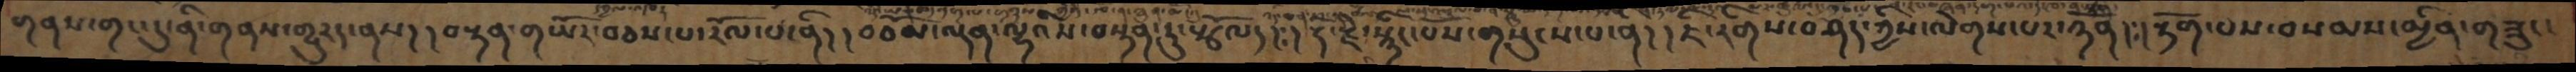གནས་གང་དུ་ནི་གནས་གྱུརད་ནས། །བརྟན་གཡོར་བཅས་པ་རོལ་པ་ནི། །བཅོམ་ལྡན་ལྷའིས་བསྟན་ཏུ་སྩོལ། །རྡོ་རྗེ་སྙིང་པོས་གསུངས་པ་ནི། །ཇི་རིགས་བཤད་ཀྱིས་ལེགས་པར་ཉོན། །རྟོག་པས་བསམས་མྱིན་གཟུང་
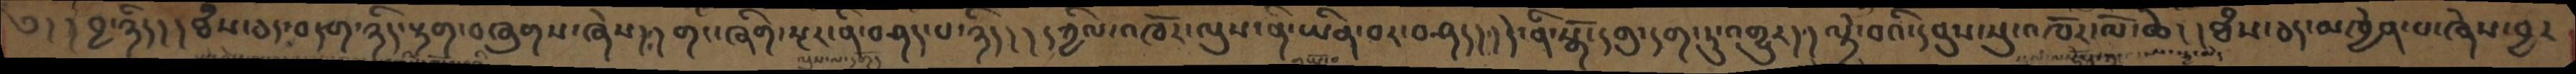༄། །བྱ་ཉིད། །ཐཾས་ཅད་བདག་ཉིད་རྟག་བཞུགས་ཞེས། །གང་ཞིག་སྔར་ནི་བཤད་པ་ཉིད། །དཀྱིལ་འཁོར་ལུས་ནི་ཡིན་བར་བཤད། །དེ་ནི་སྒོ་དགུ་དག་ཏུ་འགྱུར། །ལྟེ་བའི་དབུས་སུ་འཁོར་ལོ་ཆེ། །ཐཾས་ཅད་མཁྱེན་པ་ཞེས་བྱ་
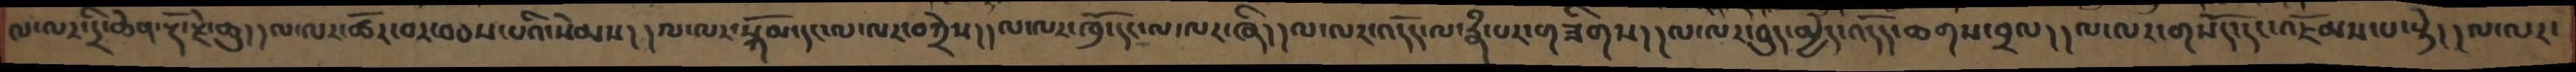ལ་ལར་དྲི་ཆེན་རྡོ་རྗེ་ཆུ། །ལ་ལར་ཚོར་བར་བཅས་པའི་སེམས། །ལ་ལར་སྐོམ་དང་ལ་ལར་བཀྲེས། །ལ་ལར་ཁྲོ་དང་ལ་ལར་ཞི། །ལ་ལར་འདོད་ལ་རྣཾ་པར་གཟིགས། །ལ་ལར་བུད་མྱེད་འདོད་ཆགས་བྲལ། །ལ་ལར་གསོད་དང་འཇོམས་པ་སྟེ། །ལ་ལར་
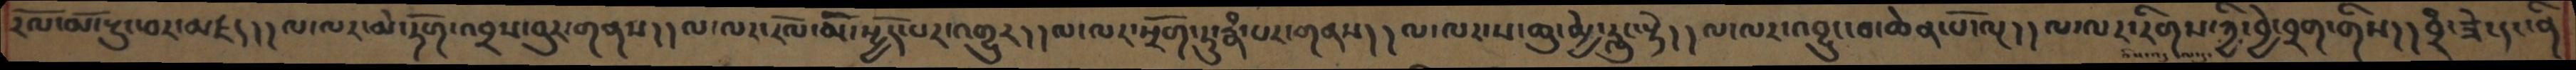རོལ་མོ་སྲུང་བར་མཛད། །ལ་ལར་མེ་ཏོག་འབྲས་བུར་གནས། །ལ་ལར་རོལ་མོ་སྤྱོད་པར་འགྱུར། །ལ་ལར་སྲོག་ཏུ་རྣཾ་པར་གནས། །ལ་ལར་ས་ཆུ་མྱེ་རླུང་སྟེ། །ལ་ལར་འབྱུང་བ་ཆེན་པོ་ལྔ། །ལ་ལར་རིགས་ཀྱི་བྱེ་བྲག་གིས། །བྲཾ་ཟེ་དང་ནི
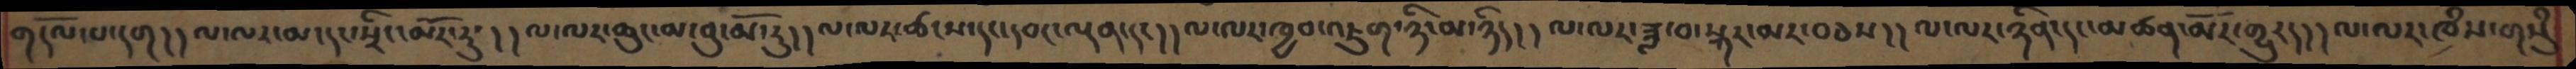གདོལ་པ་དག།།ལ་ལར་མ་དང་སྲིང་མོར་རུ་།།ལ་ལར་ཆུང་མ་བུ་མོ་རུ།།ལ་ལར་ཚངས་དང་དབང་ལྡན་དང།།ལ་ལར་ཁྱབ་འཇུག་ཉི་མ་ཉིད།།ལ་ལར་ཟླ་བ་སྐར་མར་བཅས།།ལ་ལར་ཉིན་དང་མཚན་མོར་གྱུརད།།ལ་ལར་ཁཾས་གསུཾ
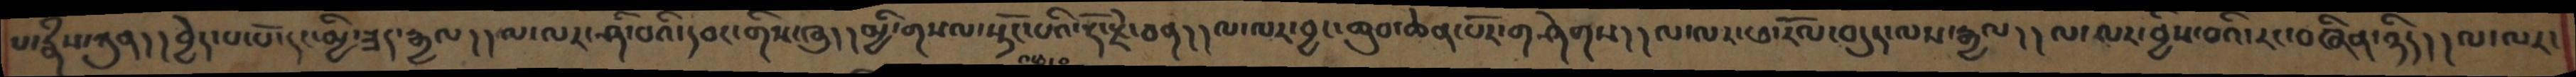པ་རྣཾས་ཀུན། །བྱེད་པ་པོ་དང་མྱི་ཟད་རྒྱལ། །ལ་ལར་ཤི་བའི་དབང་གིས་ཞུ། །མྱི་གསལ་སྟོང་པའི་རྡོ་རྗེ་ཅན། །ལ་ལར་བྱང་ཆུབ་ཆེན་པོར་གཤེགས། །ལ་ལར་ཕ་རོལ་བདུད་ལས་རྒྱལ། །ལ་ལར་བྱེས་བའི་རང་བཞིན་ཉིད། །ལ་ལར་
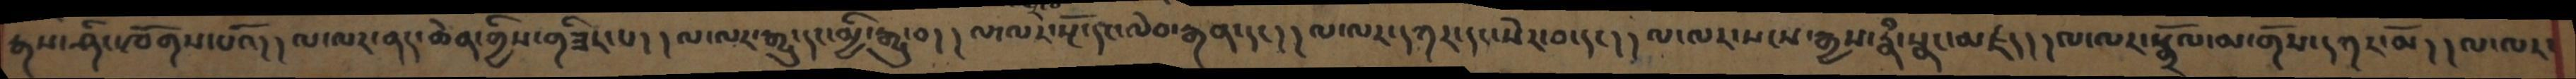རྒས་ཤིང་ཁོགས་པའོ། །ལ་ལར་ནད་ཆེན་གྱིས་གཟིར་པ། །ལ་ལར་རྒྱུ་དང་མྱི་རྒྱུ་བ། །ལ་ལར་སྔོ་དང་ལེབ་རྒན་དང། །ལ་ལར་དཀར་དང་སེར་བ་དང། །ལ་ལར་སངས་རྒྱས་རྣཾ་སྣང་མཛད། །ལ་ལར་སྒྲོལ་མ་གོས་དཀར་མོ། །ལ་ལར་
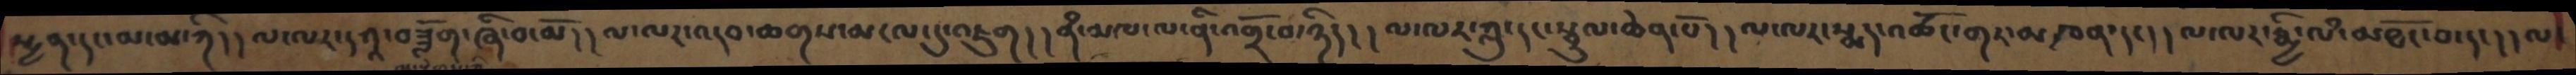སྤྱན་དང་མ་མ་ཀི། །ལ་ལར་དཀའ་བཟློག་ཞི་བ་མོ། །ལ་ལར་འདབ་ཆགས་མངལ་དུ་འཇུག། །ནཾ་མཁ་ལ་ནི་འགྲོ་བ་ཉིད། །ལ་ལར་ཀླུ་དང་སྦྲུལ་ཆེན་པོ། །ལ་ལར་སྨད་འཚོང་གར་མཁན་དང། །ལ་ལར་རྨྱི་ལཾ་མཐོང་བ་དང། །ལ
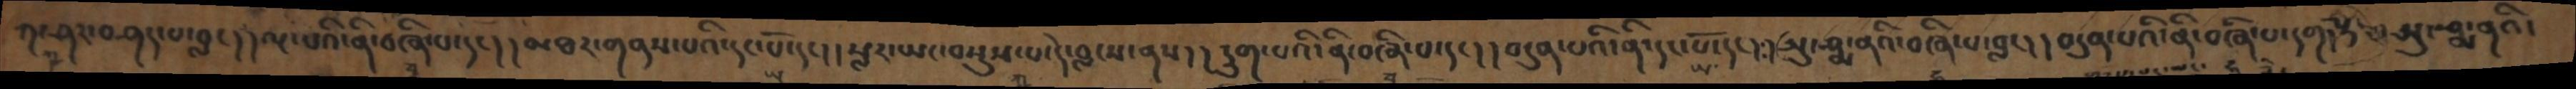ཀ་ཤར་བཤད་པ་བླང། །ལྔ་པའི་ནི་བཞི་པ་དང། །མཐར་གནས་པའི་དང་པོ་དང། །སླར་ཡང་བསྡུས་པ་དེ་བླངས་ནས། །དྲུག་པའི་ནི་བཞི་པ་དང། །བདུན་པའི་ནི་དང་པོ་དང། །ཨུ་ཤྨ་ནའི་བཞི་པ་བླང། །བདུན་པའི་ནི་བཞི་པ་དག། སྟེ།ཨུ་ཤྨ་ནའི་
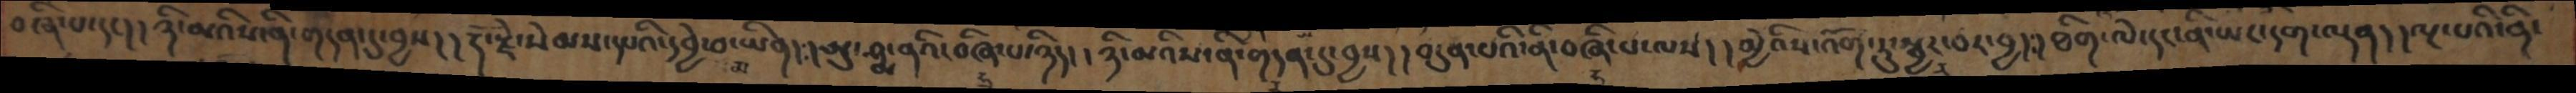བཞི་པ་དང། །ཉི་མའིས་ནི་གདན་དུ་བྱས། །རྡོ་རྗེ་སེམས་དཔའི་དབྱེ་བ་ཡིན། །ཨུ་ཤྨ་ནའི་བཞི་པ་ཉིད། །ཉི་མའིས་ནི་གདན་དུ་བྱས། །བདུན་པའི་ནི་བཞི་པ་ལས། །མྱེའིས་འོག་ཏུ་སྦྱར་བར་བྱ། །ཐིག་ལེ་དང་ནི་ཡང་དག་ལྡན། །ལྔ་པའི་ནི་
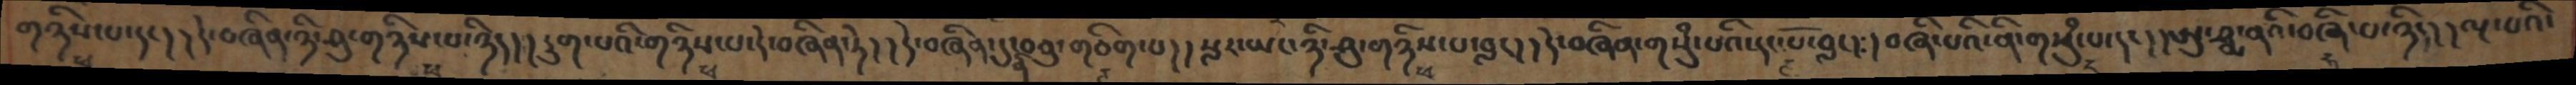གཉིས་པ་དང། །དེ་བཞིན་ཉི་ཤུ་གཉིས་པ་ཉིད། །དྲུག་པའི་གཉིས་པ་དེ་བཞིན་ཏེ། །དེ་བཞིན་དུ་ནི་བཅུ་གཅིག་པ། །སླར་ཡང་ཉི་ཤུ་གཉིས་པ་བླང། །དེ་བཞིན་གསུཾ་པའི་དང་པོ་བླང། །བཞི་པའི་ནི་གསུཾ་པ་དང། །ཨུ་ཤྨ་ནའི་བཞི་པ་ཉིད། །ལྔ་པའི་
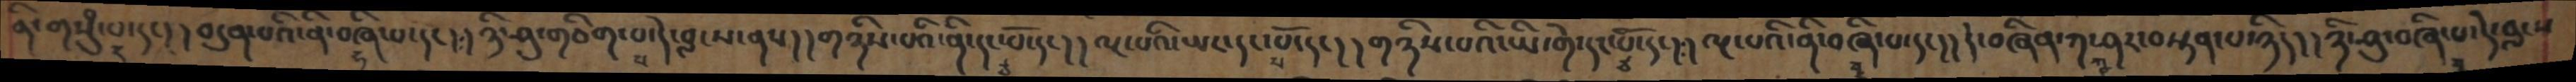ནི་གསུཾ་པ་དང།།བདུན་པའི་ནི་བཞི་པ་དང།། ཉི་ཤུ་གཅིག་པ་དེ་བླངས་ནས།།གཉིས་པའི་ནི་དང་པོ་དང།། ལྔ་པའི་ཡང་དང་པོ་དང།། གཉིས་པའི་ཡི་གེ་དང་པོ་དང།། ལྔ་པའི་ནི་བཞི་པ་དང།། དེ་བཞིན་ཀ་ཤར་བསྟན་པ་ཉིད།། ཉི་ཤུ་བཞི་པ་དེ་བླངས
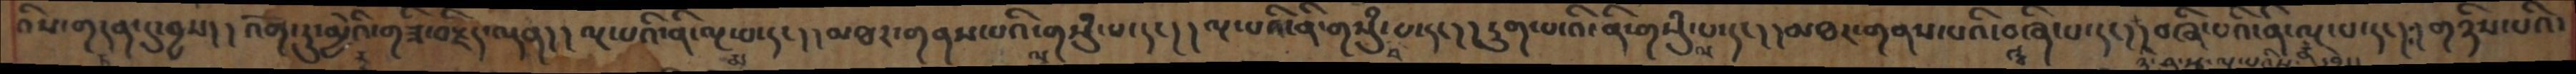འིས་གདན་དུ་བྱས། །འོག་ཏུ་མྱེའི་གཟི་བརྗིད་ལྡན། །ལྔ་པའི་ནི་ལྔ་པ་དང། མཐར་གནས་པའི་གསུཾ་པ་དང། །ལྔ་པའི་ནི་གསུཾ་པ་དང། །དྲུག་པ་འི་ནི་གསུཾ་པ་དང་། །མཐར་གནས་པའི་བཞི་པ་དང། །བཞི་པའི་ནི་ལྔ་པ་དང། །གཉིས་པའི་
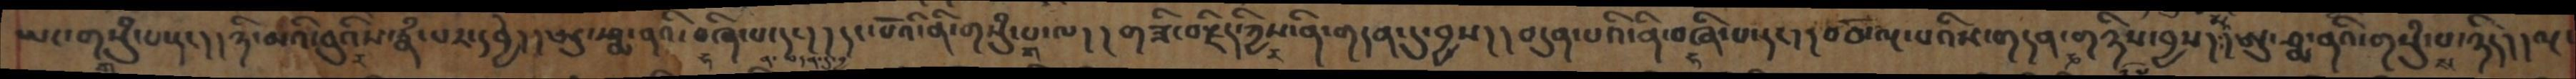ཡང་གསུཾ་པ་དང། །ཉི་མའི་བུའིས་རྣཾ་པར་དབྱེ། །ཨུ་སྨ་ནའི་བཞི་པ་དང། །དང་པོའི་ནི་གསུཾ་པ་ལ། །གཟི་བརྗིད་ཀྱིས་ནི་གདན་དུ་བྱས། །བདུན་པའི་ནི་བཞི་པ་དང། །བཅོ་ལྔ་པའིས་གདན་གཉིས་བྱས། །ཨུ་ཤྨ་ནའི་གསུཾ་པ་ཉིད། །ལྔ་
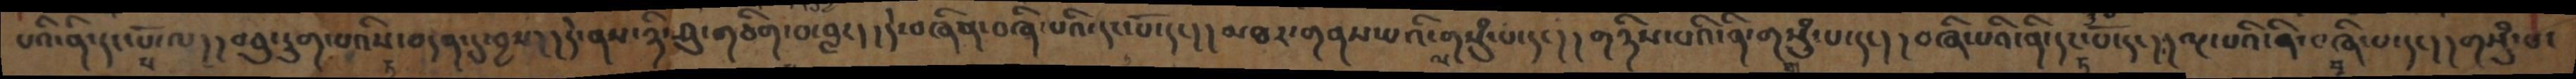པའི་ནི་དང་པོ་ལ། །བཅུ་དྲུག་པའིས་བདན་དུ་བྱས། །དེ་ནས་ཉི་ཤུ་གཅིག་པ་བླང། །དེ་བཞིན་བཞི་པའི་དང་པོ་དང། །མཐར་གནས་པའི་གསུཾ་པ་དང། །གཉིས་པའི་ནི་གསུཾ་པ་དང། །བཞི་པའི་ནི་དང་པོ་དང། །ལྔ་པའི་ནི་བཞི་པ་དང། །གསུཾ་པ་
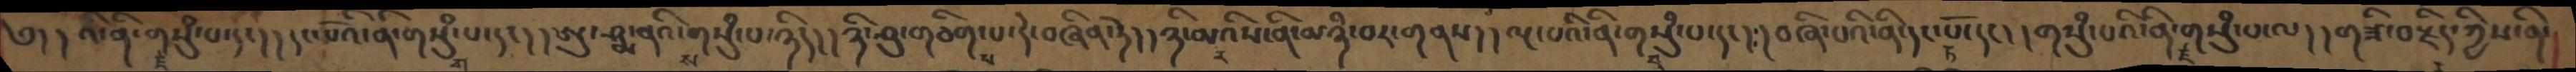༄། འདི་ནི་གསུཾ་པ་དང།། དང་པོའི་ནི་གསུཾ་པ་དང།། ཨུ་ཤྨ་ནའི་གསུཾ་པ་ཉིད།། ཉི་ཤུ་གཅིག་པ་དེ་བཞིན་ཏེ།། ཉི་མའིས་ནི་མཉཾ་བར་གནས།། ལྔ་པའི་ནི་གསུཾ་པ་དང།། བཞི་པའི་ནི་དང་པོ་དང།། གསུཾ་པའི་ནི་གསུཾ་པ་ལ།།གཟི་བརྗིད་ཀྱིས་ནི་
